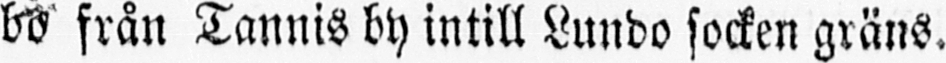bo från Tannis by intill Lundo socken gräns.
